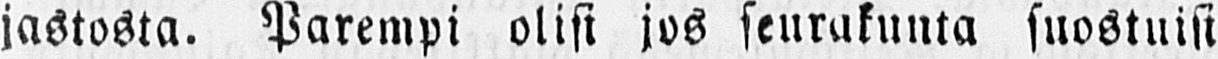jastosta. Parempi olisi jos seurakunta suostuisi
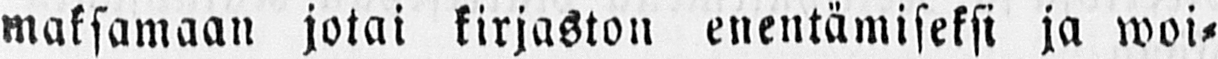maksamaan jotai kirjaston enentämiseksi ja woi-
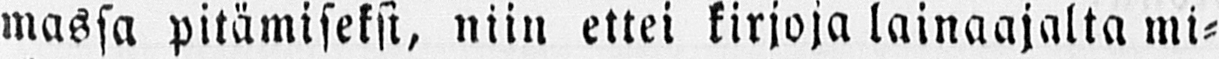massa pitämiseksi, niin ettei kirjoja lainaajalta mi-
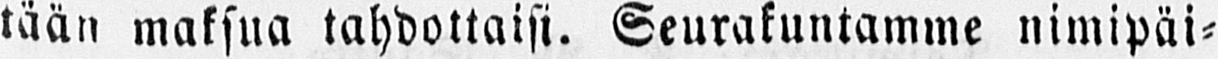tään maksua tahdottaisi. Seurakuntamme nimipäi-
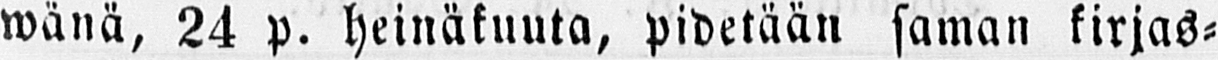wänä, 24 p. heinäkuuta, pidetään saman kirjas-
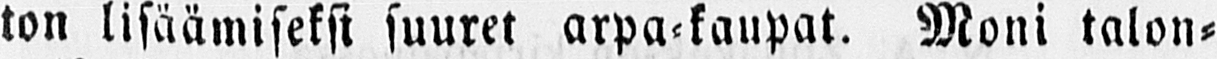ton lisäämiseksi suuret arpa-kaupat. Moni talon-
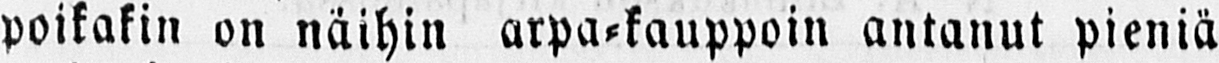poikakin on näihin arpa-kauppoin antanut pieniä
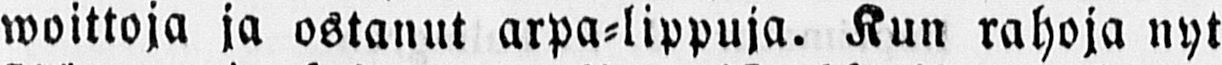woittoja ja ostanut arpa-lippuja. Kun rahoja nyt
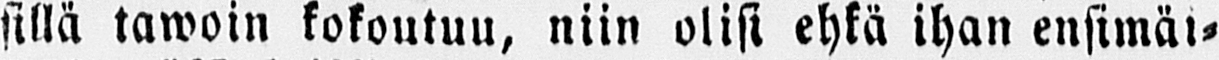sillä tawoin kokoutuu, niin olisi ehkä ihan ensimäi-
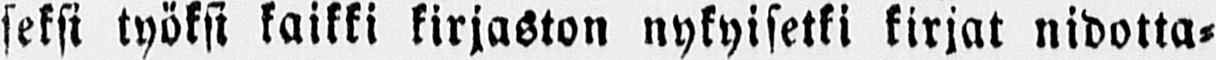seksi työksi kaikki kirjaston nykyisetki kirjat nidotta-
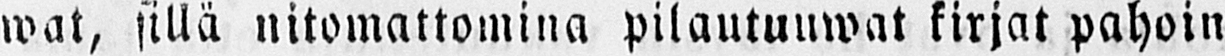wat, sillä nitomattomina pilautuuwat kirjat pahoin
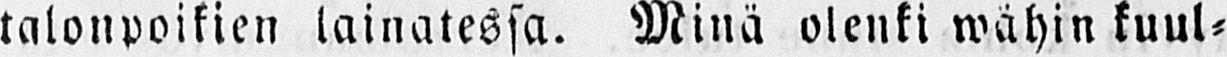talonpoikien lainatessa. Minä olenki wähin kuul-
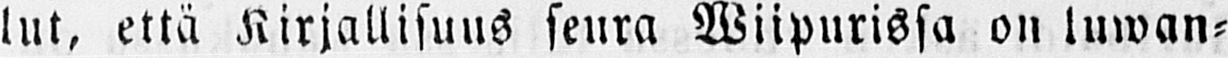lut, että Kirjallisuus seura Wiipurissa on luwan-
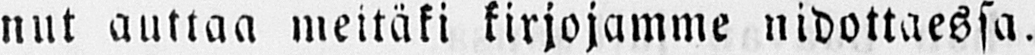nut auttaa meitäki kirjojamme nidottaessa.
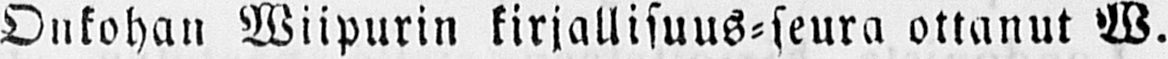Onkohan Wiipurin kirjallisuus-seura ottanut W.
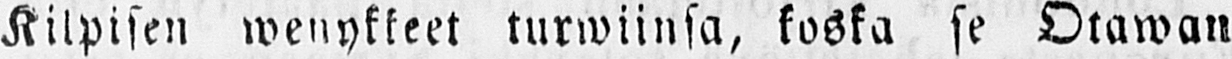Kilpisen wenykkeet turwiinsa, koska se Otawan
